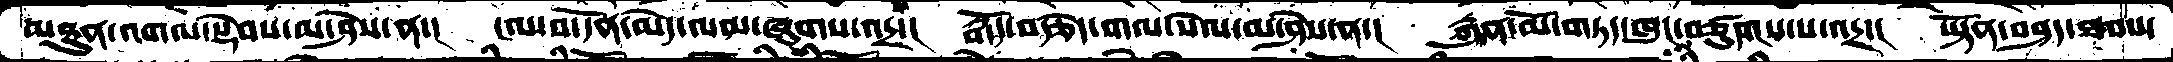མཐུན་འགལ་སྡེབས་མ་ཤེས་ན་། ངལ་བ་དོན་མེད་ལམ་ཞུགས་འདྲ་། རྒོད་བརྩེད་གལ་སེལ་མ་ཤེས་ན་། རྐུན་མོ་གཏད་ཁུང་བཙུགས་པ་འདྲ་། ཡྟོན་བཤད་ཐབས་
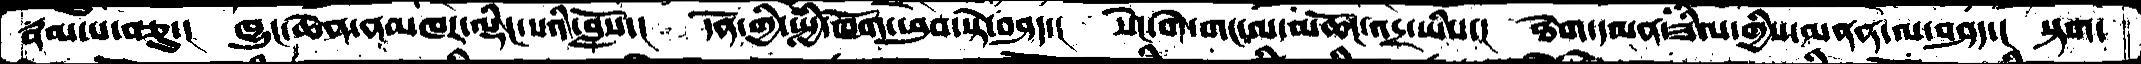རྣམ་པ་བཅུ་། ཁྱུང་ཆེན་ནམཁར་ལྡིང་པའི་བློས་། དོན་གྱི་སྤྱི་ཁོག་ཕུབ་སྟེ་བཤད་།  སེང་གེ་གང་ལ་མཆོང་འདྲ་ཡིས་། ཐེག་དམན་ཟིལ་གྱིས་མནན་ལ་བཤད་། སྟག་
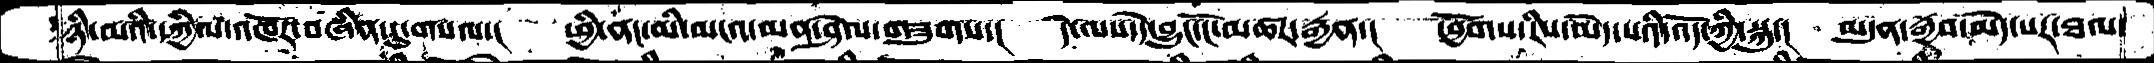ཉི་མའི་དཀྱིལ་འཁོར་བཞིན་དུ་གསལ་། ཕྱི་ནང་མི་མངའ་མན་ཤེལ་གཟུགས་། དེ་ལས་དེ་བྱུང་ངོ་མཚར་རྒྱན་། ཕྱོགས་རིས་མེད་པའི་འོད་ཀྱི་སྐུ་། མདུན་རྒྱབ་མེད་པར་ཐལ་
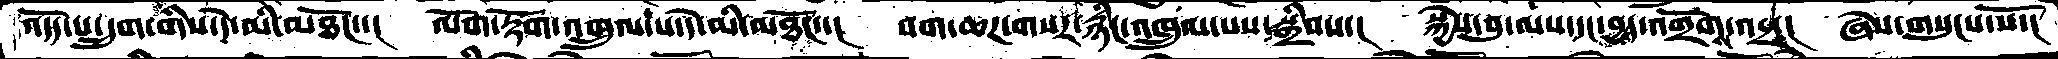འདོད་པ་དྲུག་གིས་དེ་མི་མཐོང་་།  ལོག་རྟོག་འཁྲུལ་པ་དེ་མི་མཐོང་་། བག་ཆཌ་གསར་རྙིང་འཁྲུལ་པས་སྒྲིབས་།  སྐྱེས་བུ་ལས་དང་བྱད་འགྲོགས་འདྲ་། ཞེས་གསུངས་སོ་།
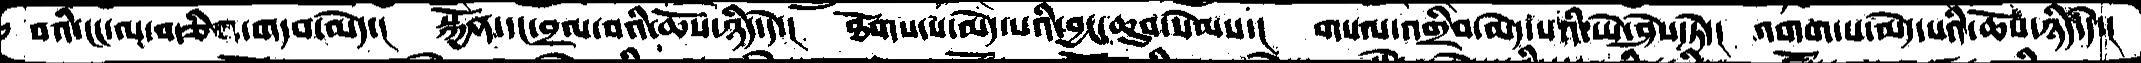བའི་ངང་ལ་བརྩིག་གདབ་མེད་།  སྐྱོན་དང་བྲལ་བའི་ཆསོ་ཉིད་དེ་།  ཐོགས་པ་མེད་པའི་བྱང་ཆུབ་སེམས་། གསལ་འགྲིབ་མེད་པའི་ཡེ་ཤེས་ཏེ་།  འགག་པ་མེད་པའི་ཆོས་ཉིད་དེ་།
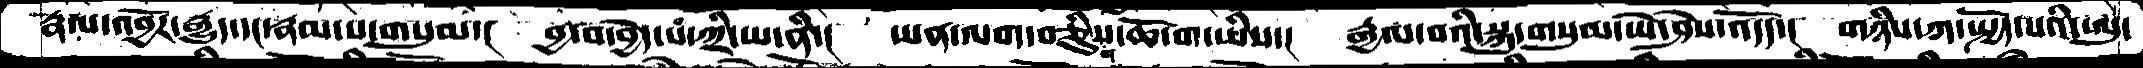རྣལ་འབྱོར་རྒྱུད་དང་རྣམ་པ་གསུམ་།  བྱ་བ་བྱེད་པ་ཀྲི་ཡ་ནི་།  ཡན་ལག་གཅིུས་ཆོ་ག་ཡིས་།  རྒྱལ་བའི་སྐུ་གསུམ་ཡེ་ཤེས་འདོད་།  གཉིས་ཀ་སྤྱོད་པའི་ཨུ་
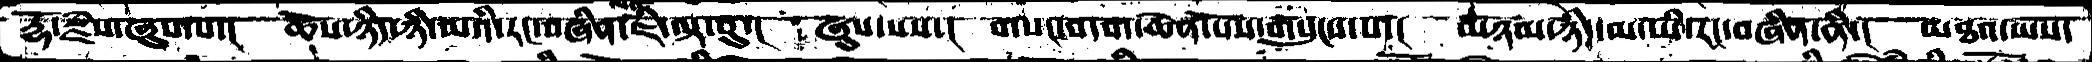རྡོ་རྗེས་ཞུས་པ་།  ཆོས་ཉིད་ཉི་མའི་རང་བཞིན་ཇི་ལྟ་བུ་།  ཞུས་པས་།  གསང་བདག་ཆེན་པོས་གསུངས་པ་།  མཉམ་ཉིད་མ་ཡི་རང་བཞིན་ནི་།  མཐའ་ཡས་
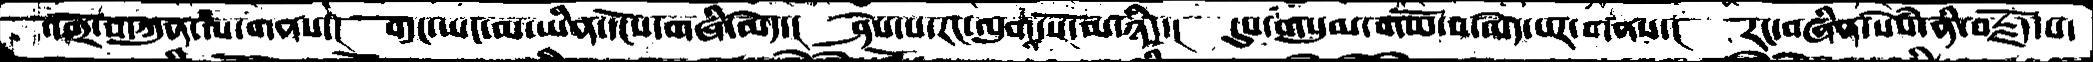འགྲོ་བ་ཀུན་ལ་གནས་།  གང་ཡང་མ་ཡིན་དངོས་གཞི་མེད་།  ཤེས་པ་རང་ལུགས་སོ་མ་ཉིད་།  དུས་གསུམ་གཡོ་བ་མེད་པར་གནས་།  རང་བཞིན་སེཾས་ནི་བརྗོད་པ་
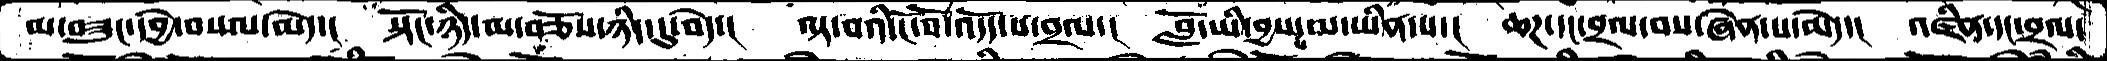མ་བཟུང་དབྱེ་བསལ་མེད་།  སྟོང་ཉིད་མ་བཅོས་ཉིད་དུ་བདེ་།  ལྟ་བའི་ངོ་བོ་འདོད་པ་བྲལ་།  བློ་ཡི་བྱས་པ་མ་ཡིན་པ་།  ཆཌ་དང་བྲལ་བས་ཞེན་པ་མེད་།  འཛིན་དང་བྲལ་
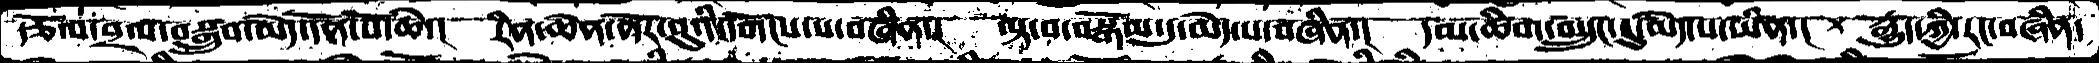རྩོལ་བྲལ་བསྒྲུབ་མེད་དོན་པོ་ཆེ་།  རིན་ཆེན་ནོར་བུའི་དགོངས་པ་བཞིན་།  ལྟ་བ་བསྒོམ་དུ་མེད་པ་བཞིན་།  དམ་ཚིག་བསྲུང་དུ་མེད་པ་ཡིན་།  རྒྱུད་ཀྱི་རང་བཞིན་
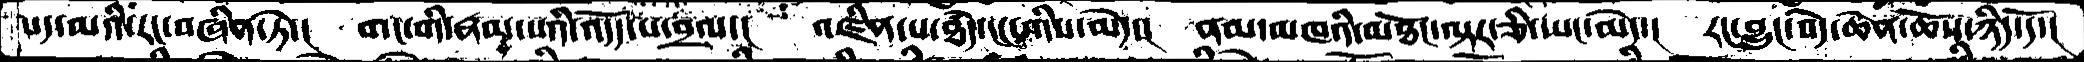པད་མའི་རང་བཞིན་ཏེ་།  གང་གི་རྣམ་པའི་འདོད་པ་བྲལ་།  འཛིན་པ་ཐཾད་ངང་གིས་མེད་།  ནམ་མཁའི་མཐོང་ལྟར་ཅི་ཡང་མེད་།  རང་བྱུང་བདེ་ཆེན་ཆོས་ཉིད་དོ་།
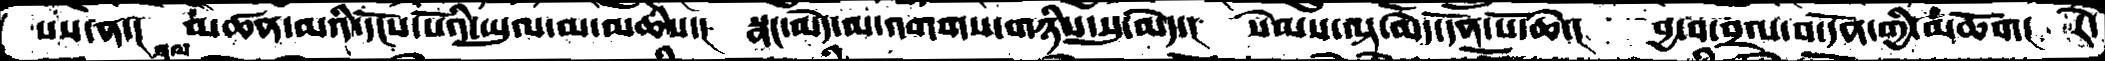པས་ན་།  མཚན་མའི་དངོས་པོའི་ཡུལ་མ་མཆིས་།  སྣང་མེད་མ་འགགས་གཉིས་སུ་མེད་།  སེམས་ལྟ་མེད་དོན་པོ་ཆེ་།  བྱ་བ་བྲལ་བ་དོན་གྱི་མཆོག། རེ་
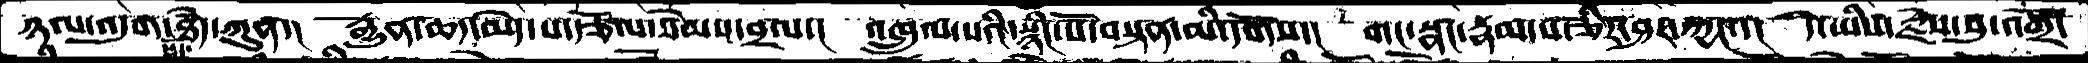ཉལ་འདུག་ཐཾད་ཀུན་།  རྒྱུན་ཆད་མེད་པ་རྩོལ་སེམས་བྲལ་།  འཁྲུལ་པའི་སྙིང་པོ་བསྟན་མི་དགོས་།  གང་སྣང་རྣམ་པ་ཅིར་ཤར་ཀྱང་་།  དེ་ཡིས་རྗེས་སུ་འགྲོ་
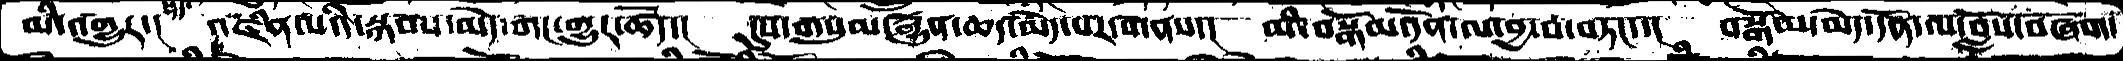མི་འགྱུར་།  འཛིན་པའི་སྐབས་མེད་གང་འགྱུར་ཚོད་།   དུས་གསུམ་རྒྱུན་ཆད་མེད་པར་གནས་།  མི་བསྒོམ་དོན་ལ་བྱ་བ་བཏང་་།  བསྒོམ་མེད་དོན་ལ་བློས་བཞག་
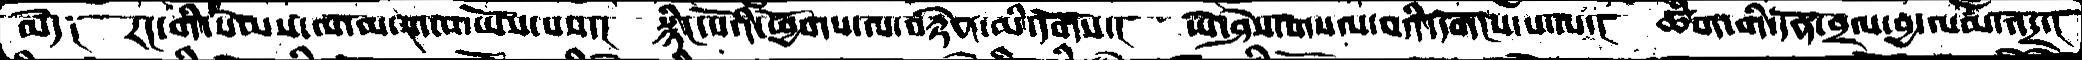མེད༑ རང་གི་སེམས་ལོ་མ་གངས་ཡོས་པས་།  སྙིང་པོའི་ཕྱོགས་ལ་བརྟེན་མི་དགོས་།   ཡེ་ཤེས་གསལ་བའི་དགོངས་པ་ལ་།  ཚིག་གི་དོན་བྲལ་བྱ་ལམ་འདྲ་།
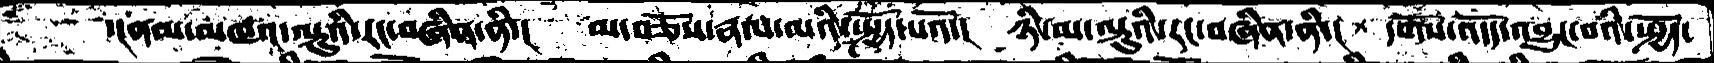་།ནམ་མཁའ་ལྟུའི་རང་བཞིན་ནི་།  མ་བཅོས་རྣལ་མའི་སྤྱོད་པའོ་།   ཉི་མ་ལྟུའི་རང་བཞིན་ནི་།  དགོས་འདོད་འབྱུང་བའི་སྤྱོད་
